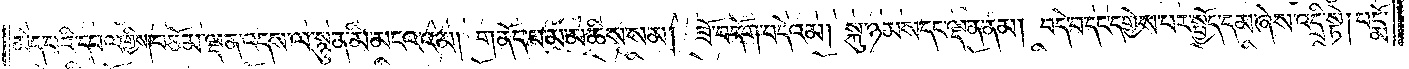མེད་པའི་དཔལ་གྱིས། བཅོམ་ལྡན་འདས་ལ་སྙུན་མི་མངའ་འམ། གནོད་པ་མ་མཆིས་སམ། ཟོ་བདོག་བདེའམ། སྐུ་ཉམས་དང་ལྡན་ནམ། བདེ་བ་དང་དགྱེས་པར་སྤྱོད་དམ་ཞེས་འདྲི་སྟེ། པདྨོ་
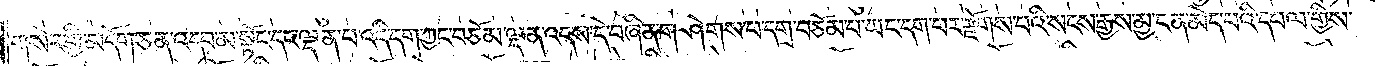གསེར་གྱི་མདོག་ཅན་འདབ་མ་སྟོང་དང་ལྡན་པ་འདི་དག་ཀྱང་བཅོམ་ལྡན་འདས་དེ་བཞིན་གཤེགས་པ་དགྲ་བཅོམ་པ་ཡང་དག་པར་རྫོགས་པའི་སངས་རྒྱས་མྱ་ངན་མེད་པའི་དཔལ་གྱིས་
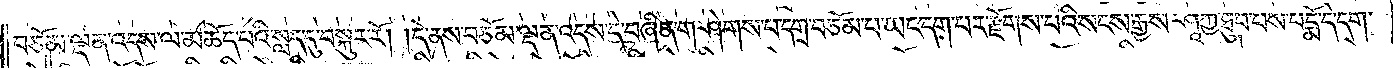བཅོམ་ལྡན་འདས་ལ་མཆོད་པའི་སླད་དུ་བསྐུར་རོ། །དེ་ནས་བཅོམ་ལྡན་འདས་དེ་བཞིན་གཤེགས་པ་དགྲ་བཅོམ་པ་ཡང་དག་པར་རྫོགས་པའི་སངས་རྒྱས་ཤཱཀྱ་ཐུབ་པས་པདྨོ་དེ་དག་
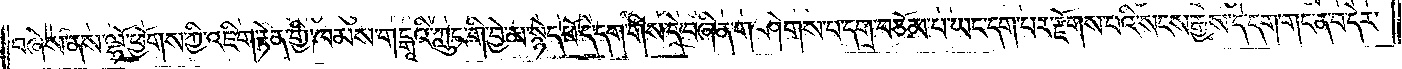བཞེས་ནས་ལྷོ་ཕྱོགས་ཀྱི་འཇིག་རྟེན་གྱི་ཁམས་གངྒཱའི་ཀླུང་གི་བྱེ་མ་སྙེད་པོ་དེ་དག་གིས་དེ་བཞིན་གཤེགས་པ་དགྲ་བཅོམ་པ་ཡང་དག་པར་རྫོགས་པའི་སངས་རྒྱས་དེ་དག་གང་ན་བ་དེར་
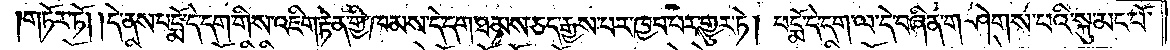གཏོར་ཏོ། །དེ་ནས་པདྨོ་དེ་དག་གིས་འཇིག་རྟེན་གྱི་ཁམས་དེ་དག་ཐམས་ཅད་རྒྱས་པར་ཁྱབ་པར་གྱུར་ཏེ། པདྨོ་དེ་དག་ལ་དེ་བཞིན་གཤེགས་པའི་སྐུ་མང་པོ་
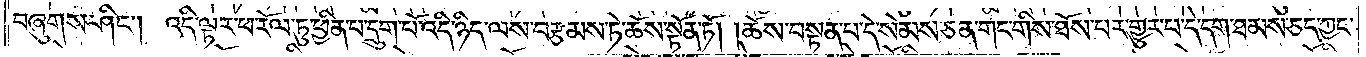བཞུགས་ཤིང༌། འདི་ལྟར་ཕ་རོལ་ཏུ་ཕྱིན་པ་དྲུག་པོ་འདི་ཉིད་ལས་བརྩམས་ཏེ་ཆོས་སྟོན་ཏོ། །ཆོས་བསྟན་པ་དེ་སེམས་ཅན་གང་གིས་ཐོས་པར་གྱུར་པ་དེ་དག་ཐམས་ཅད་ཀྱང་
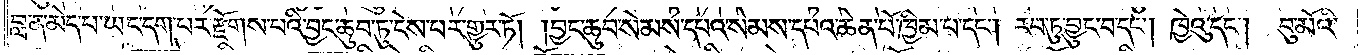བླ་ན་མེད་པ་ཡང་དག་པར་རྫོགས་པའི་བྱང་ཆུབ་ཏུ་ངེས་པར་གྱུར་ཏོ། །བྱང་ཆུབ་སེམས་དཔའ་སེམས་དཔའ་ཆེན་པོ་ཁྱིམ་པ་དང༌། རབ་ཏུ་བྱུང་བ་དང༌། ཁྱེའུ་དང༌། བུ་མོའི་
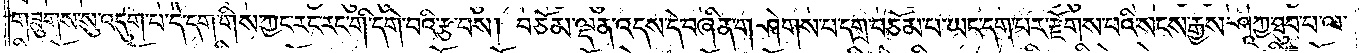གཟུགས་སུ་འདུག་པ་དེ་དག་གིས་ཀྱང་རང་རང་གི་དགེ་བའི་རྩ་བས། བཅོམ་ལྡན་འདས་དེ་བཞིན་གཤེགས་པ་དགྲ་བཅོམ་པ་ཡང་དག་པར་རྫོགས་པའི་སངས་རྒྱས་ཤཱཀྱ་ཐུབ་པ་ལ་
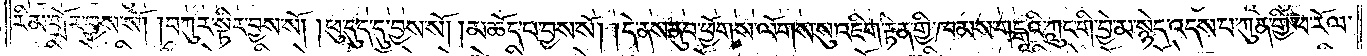རིམ་གྲོར་བྱས་སོ། །བཀུར་སྟིར་བྱས་སོ། །ཕུ་དུད་དུ་བྱས་སོ། །མཆོད་པ་བྱས་སོ། །དེ་ནས་ནུབ་ཕྱོགས་ལོགས་སུ་འཇིག་རྟེན་གྱི་ཁམས་གངྒཱའི་ཀླུང་གི་བྱེ་མ་སྙེད་འདས་པ་ཀུན་གྱི་ཕ་རོལ་
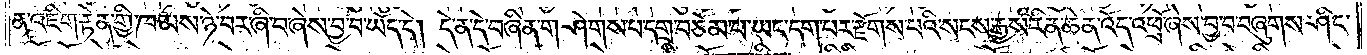ན་འཇིག་རྟེན་གྱི་ཁམས་ཉེ་བར་ཞི་བ་ཞེས་བྱ་བ་ཡོད་དེ། དེ་ན་དེ་བཞིན་གཤེགས་པ་དགྲ་བཅོམ་པ་ཡང་དག་པར་རྫོགས་པའི་སངས་རྒྱས་རིན་ཆེན་འོད་འཕྲོ་ཞེས་བྱ་བ་བཞུགས་ཤིང་
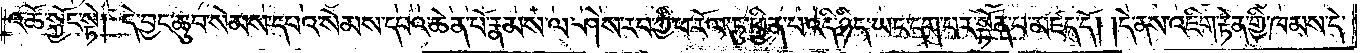འཚོ་སྐྱོང་སྟེ། དེ་བྱང་ཆུབ་སེམས་དཔའ་སེམས་དཔའ་ཆེན་པོ་རྣམས་ལ་ཤེས་རབ་ཀྱི་ཕ་རོལ་ཏུ་ཕྱིན་པ་འདི་ཉིད་ཡང་དག་པར་སྟོན་པ་མཛད་དོ། །དེ་ནས་འཇིག་རྟེན་གྱི་ཁམས་དེ་
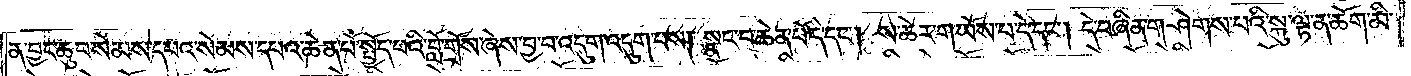ན་བྱང་ཆུབ་སེམས་དཔའ་སེམས་དཔའ་ཆེན་པོ་སྤྱོད་པའི་བློ་གྲོས་ཞེས་བྱ་བ་འདུག་འདུག་པས། སྣང་བ་ཆེན་པོ་དེ་དང༌། ས་ཆེར་གཡོས་པ་དེ་དང༌། དེ་བཞིན་གཤེགས་པའི་སྐུ་ལྟ་ན་ཆོག་མི་
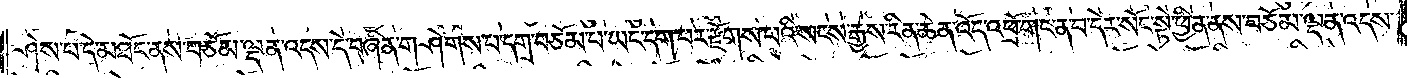ཤེས་པ་དེ་མཐོང་ནས་བཅོམ་ལྡན་འདས་དེ་བཞིན་གཤེགས་པ་དགྲ་བཅོམ་པ་ཡང་དག་པར་རྫོགས་པའི་སངས་རྒྱས་རིན་ཆེན་འོད་འཕྲོ་གང་ན་བ་དེར་སོང་སྟེ་ཕྱིན་ནས་བཅོམ་ལྡན་འདས་
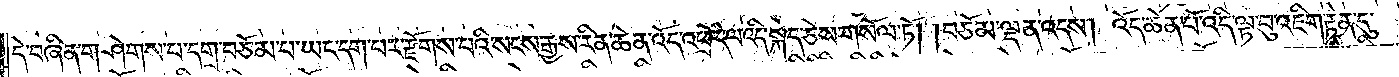དེ་བཞིན་གཤེགས་པ་དགྲ་བཅོམ་པ་ཡང་དག་པར་རྫོགས་པའི་སངས་རྒྱས་རིན་ཆེན་འོད་འཕྲོ་དེ་ལ་འདི་སྐད་ཅེས་གསོལ་ཏོ། །བཅོམ་ལྡན་འདས། འོད་ཆེན་པོ་འདི་ལྟ་བུ་འཇིག་རྟེན་དུ་
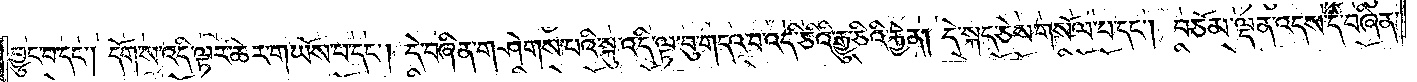བྱུང་བ་དང༌། དོག་ས་འདི་ལྟར་ཆེར་གཡོས་པ་དང༌། དེ་བཞིན་གཤེགས་པའི་སྐུ་འདི་ལྟ་བུ་གདའ་བ་འདི་ཅིའི་རྒྱུ་ཅིའི་རྐྱེན། དེ་སྐད་ཅེས་གསོལ་པ་དང༌། བཅོམ་ལྡན་འདས་དེ་བཞིན་
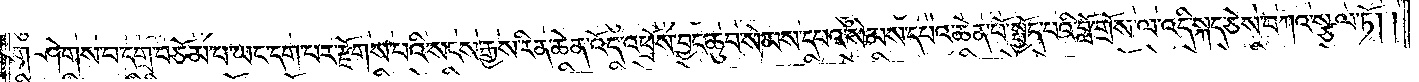གཤེགས་པ་དགྲ་བཅོམ་པ་ཡང་དག་པར་རྫོགས་པའི་སངས་རྒྱས་རིན་ཆེན་འོད་འཕྲོས་བྱང་ཆུབ་སེམས་དཔའ་སེམས་དཔའ་ཆེན་པོ་སྤྱོད་པའི་བློ་གྲོས་ལ་འདི་སྐད་ཅེས་བཀའ་སྩལ་ཏོ༎
